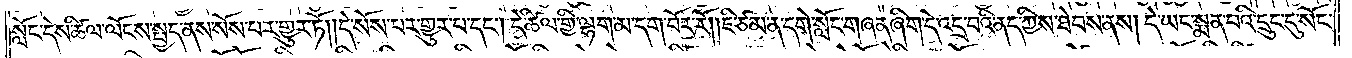སློང་དེས་ཚིལ་ལོངས་སྤྱད་ནས་སོས་པར་གྱུར་ཏོ། །དེ་སོས་པར་གྱུར་པ་དང༌། དེ་ཚིལ་གྱི་ལྷག་མ་དག་བོར་རོ། །ཇི་ཙམ་ན་དགེ་སློང་གཞན་ཞིག་དེ་འདྲ་བའི་ནད་ཀྱིས་ཐེབས་ནས། དེ་ཡང་སྨན་པའི་དྲུང་དུ་སོང་
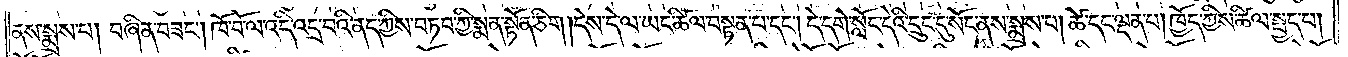ནས་སྨྲས་པ། བཞིན་བཟང༌། ཁོ་བོ་ལ་འདི་འདྲ་བའི་ནད་ཀྱིས་བཏབ་ཀྱི་སྨན་སྟོན་ཅིག །དེས་དེ་ལ་ཡང་ཚིལ་བསྟན་པ་དང༌། དེ་དགེ་སློང་དེའི་དྲུང་དུ་སོང་ནས་སྨྲས་པ། ཚེ་དང་ལྡན་པ། ཁྱོད་ཀྱིས་ཚིལ་སྤྱད་པ།
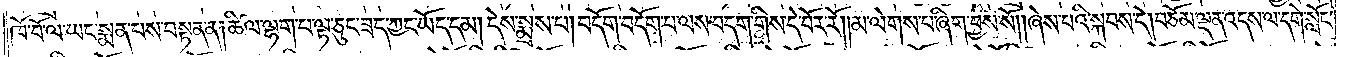ཁོ་བོ་ལ་ཡང་སྨན་པས་བསྟན་ན། ཚིལ་ལྷག་པ་ལྟ་ཅུང་ཟད་ཀྱང་ཡོད་དམ། དེས་སྨྲས་པ། བདོག་བདོག་པ་ལས་བདག་གིས་དེ་བོར་རོ། །མ་ལེགས་པ་ཞིག་བྱས་སོ། །ཞེས་པའི་སྐབས་དེ། བཅོམ་ལྡན་འདས་ལ་དགེ་སློང་
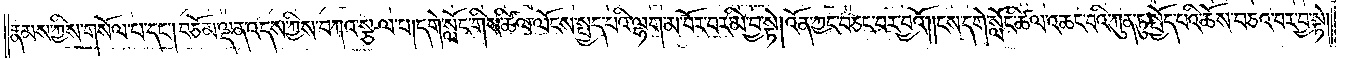རྣམས་ཀྱིས་གསོལ་པ་དང༌། བཅོམ་ལྡན་འདས་ཀྱིས་བཀའ་སྩལ་པ། དགེ་སློང་གིས་ཚིལ་ལོངས་སྤྱད་པའི་ལྷག་མ་བོར་བར་མི་བྱ་སྟེ། འོན་ཀྱང་བཅང་བར་བྱའོ། །ངས་དགེ་སློང་ཚིལ་འཆང་བའི་ཀུན་ཏུ་སྤྱོད་པའི་ཆོས་བཅའ་བར་བྱ་སྟེ།
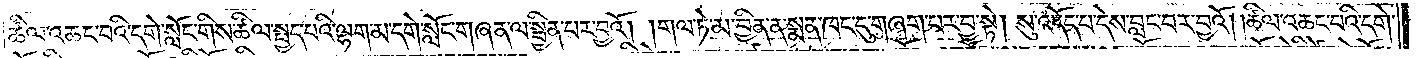ཚལ་འཆང་བའི་དགེ་སློང་གིས་ཚིལ་སྤྱད་པའི་ལྷག་མ་དགེ་སློང་གཞན་ལ་སྦྱིན་པར་བྱའོ། །གལ་ཏེ་མ་བྱིན་ན་སྨན་ཁང་དུ་གཞག་པར་བྱ་སྟེ། སུ་འདོད་པ་དེས་བླང་བར་བྱའོ། །ཚིལ་འཆང་བའི་དགེ་
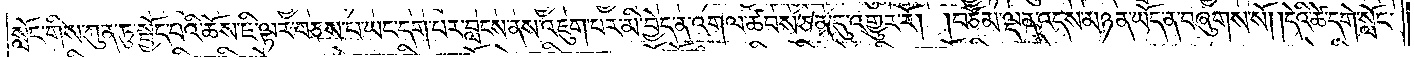སློང་གིས་ཀུན་ཏུ་སྤྱོད་པའི་ཆོས་ཇི་ལྟར་བཅས་པ་ཡང་དག་པར་བླངས་ནས་འཇུག་པར་མི་བྱེད་ན་འགལ་ཚབས་ཅན་དུ་འགྱུར་རོ། །བཅོམ་ལྡན་འདས་མཉན་ཡོད་ན་བཞུགས་སོ། །དེའི་ཚེ་དགེ་སློང་
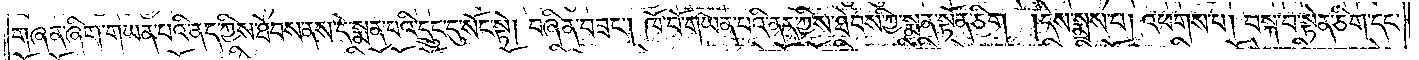གཞན་ཞིག་གཡན་པའི་ནད་ཀྱིས་ཐེབས་ནས་དེ་སྨན་པའི་དྲུང་དུ་སོང་སྟེ། བཞིན་བཟང༌། ཁོ་བོ་གཡན་པའི་ནད་ཀྱིས་ཐེབས་ཀྱི་སྨན་སྟོན་ཅིག །དེས་སྨྲས་པ། འཕགས་པ། བསྐ་བ་སྟེན་ཅིག་དང་
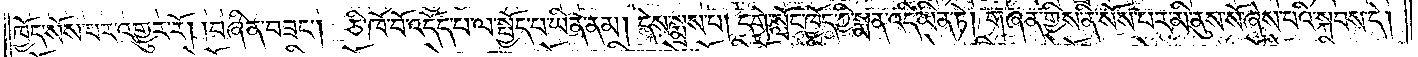ཁྱོད་སོས་པར་འགྱུར་རོ། །བཞིན་བཟང༌། ཅི་ཁོ་བོ་འདོད་པ་ལ་སྤྱོད་པ་ཡིན་ནམ། དེས་སྨྲས་པ། དགེ་སློང་ཁྱོད་ཀྱི་སྨན་འདི་ཡིན་ཏེ། གཞན་གྱིས་ནི་སོས་པར་མི་ནུས་སོ་ཞེས་པའི་སྐབས་དེ།
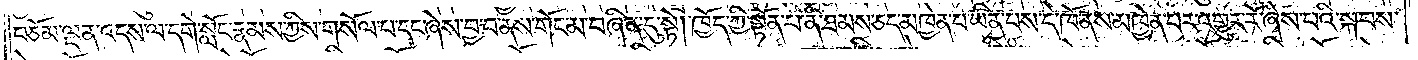བཅོམ་ལྡན་འདས་ལ་དགེ་སློང་རྣམས་ཀྱིས་གསོལ་པ་དང་ཞེས་བྱ་བ་ནས་གོང་མ་བཞིན་དུ་སྟེ། ཁྱོད་ཀྱི་སྟོན་པ་ནི་ཐམས་ཅད་མཁྱེན་པ་ཡིན་པས་དེ་ཁོ་ནས་མཁྱེན་པར་འགྱུར་རོ་ཞེས་པའི་སྐབས་
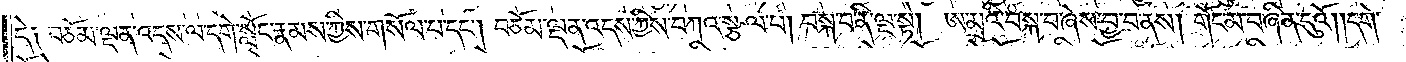དེ༑  བཅོམ་ལྡན་འདས་ལ་དགེ་སློང་རྣམས་ཀྱིས་གསོལ་པ་དང༌། བཅོམ་ལྡན་འདས་ཀྱིས་བཀའ་སྩལ་པ། བསྐ་བ་ནི་ལྔ་སྟེ། ཨ་མྲའི་བསྐ་བ་ཞེས་བྱ་བ་ནས། གོང་མ་བཞིན་དུའོ། །དགེ་
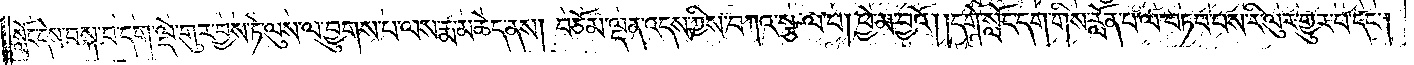སློང་དེས་བསྐ་བ་དག་ལྡེ་གུར་བྱས་ཏེ་ལུས་ལ་བྱུགས་པ་ལས་རྨ་མཆེད་ནས། བཅོམ་ལྡན་འདས་ཀྱིས་བཀའ་སྩལ་པ། ཕྱེ་མ་བྱའོ། །དགེ་སློང་དག་གིས་རློན་པ་ལ་བཏབ་པས་རི་ལུར་གྱུར་པ་དང༌།
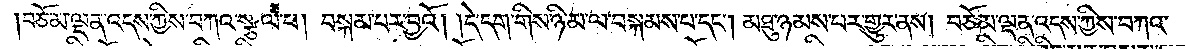བཅོམ་ལྡན་འདས་ཀྱིས་བཀའ་སྩལ་པ། བསྐམ་པར་བྱའོ། །དེ་དག་གིས་ཉི་མ་ལ་བསྐམས་པ་དང༌། མཐུ་ཉམས་པར་གྱུར་ནས། བཅོམ་ལྡན་འདས་ཀྱིས་བཀའ་
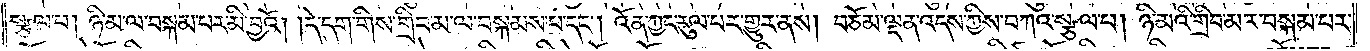སྩལ་པ། ཉི་མ་ལ་བསྐམ་པར་མི་བྱའོ། །དེ་དག་གིས་གྲིབ་མ་ལ་བསྐམས་པ་དང༌། འོན་ཀྱང་རུལ་པར་གྱུར་ནས། བཅོམ་ལྡན་འདས་ཀྱིས་བཀའ་སྩལ་པ། ཉི་མའི་གྲིབ་མར་བསྐམ་པར་
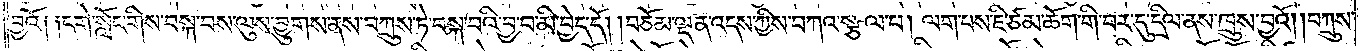བྱའོ༑ ༑དགེ་སློང་གིས་བསྐ་བས་ལུས་བྱུགས་ནས་བཀྲུས་ཏེ་བསྐ་བའི་བྱ་བ་མི་བྱེད་དོ། །བཅོམ་ལྡན་འདས་ཀྱིས་བཀའ་སྩལ་པ། ལག་པས་ཇི་ཙམ་ཆོག་གི་བར་དུ་དྲིལ་ནས་ཁྲུས་བྱའོ། །བཀྲུས༏
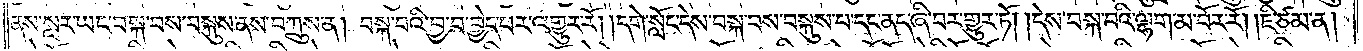ནས་སླར་ཡང་བསྐ་བས་བསྐུས་ནས་བཀྲུས་ན། བསྐ་བའི་བྱ་བ་བྱེད་པར་འགྱུར་རོ། །དགེ་སློང་དེས་བསྐ་བས་བསྐུས་པ་དང་ནད་ཞི་བར་གྱུར་ཏོ། །དེས་བསྐ་བའི་ལྷག་མ་བོར་རོ། །ཇི་ཙམ་ན།
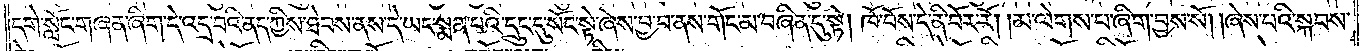དགེ་སློང་གཞན་ཞིག་དེ་འདྲ་བའི་ནད་ཀྱིས་ཐེབས་ནས་དེ་ཡང་སྨན་པའི་དྲུང་དུ་སོང་སྟེ་ཞེས་བྱ་བ་ནས་གོང་མ་བཞིན་དུ་སྟེ། ཁོ་བོས་དེ་ནི་བོར་རོ། །མ་ལེགས་པ་ཞིག་བྱས་སོ། །ཞེས་པའི་སྐབས་
